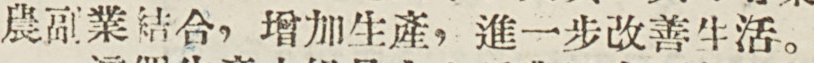農副業結合，增加生產，進一步改善生活。
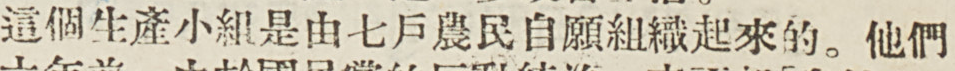這個生產小組是由七戶農民自願組織起來的。他們
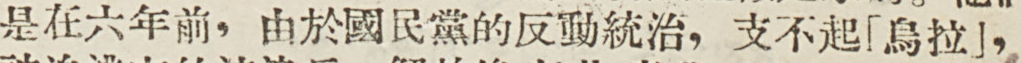是在六年前，由於國民黨的反動統治，支不起「烏拉」，
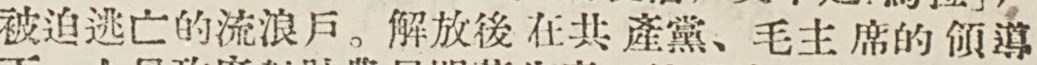被迫逃亡的流浪戶。解放後在共產黨、毛主席的領導
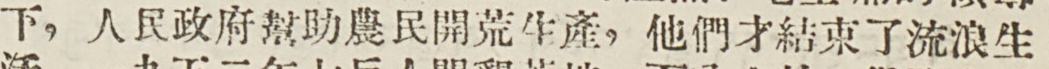下，人民政府幫助農民開荒生產，他們才結束了流浪生
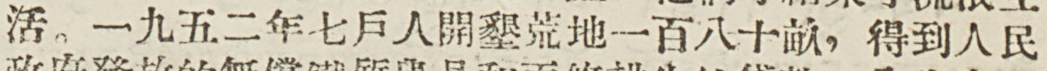活。一九五二年七戶人開墾荒地一百八十畝，得到人民
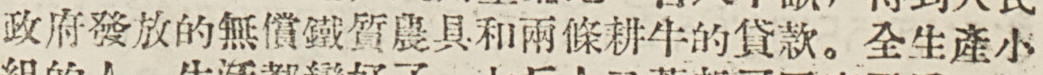政府發放的無償鐵質農具和兩條耕牛的貸款。全生產小
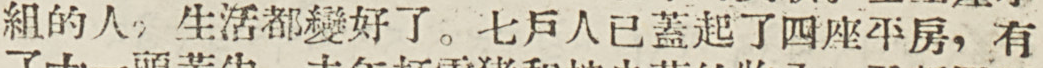組的人，生活都變好了。七戶人已蓋起了四座平房，有
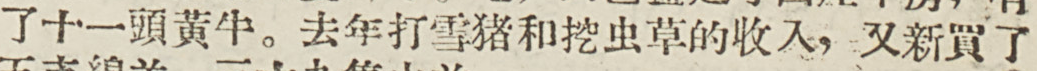了十一頭黃牛。去年打雪猪和挖虫草的收入，又新買了
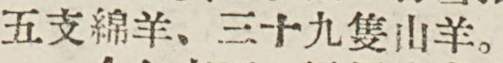五支綿羊、三十九隻山羊。
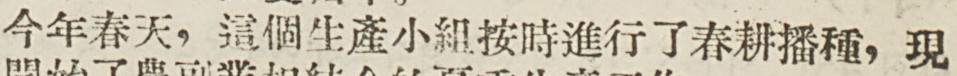今年春天，這個生產小組按時進行了春耕播種，現
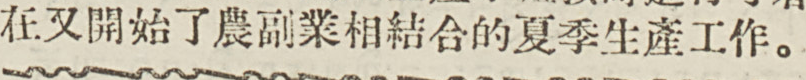在又開始了農副業相結合的夏季生產工作。
